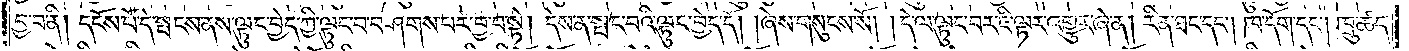བྱ་བ་ནི། དངོས་པོ་དེ་སྤངས་ནས་ལྟུང་བྱེད་ཀྱི་ལྟུང་བ་བཤགས་པར་བྱ་བ་སྟེ། དེས་ན་སྤང་པའི་ལྟུང་བྱེད་དོ། །ཞེས་གསུངས་སོ། །དེ་ལ་ལྟུང་བར་ཇི་ལྟར་འགྱུར་ཞེ་ན། རིན་ཐང་དང༌། ཁ་དོག་དང༌། ཁྲུ་ཚད་
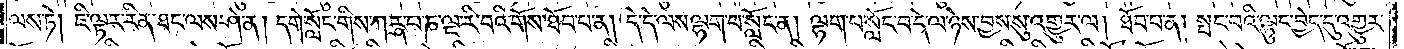ལས་ཏེ། ཇི་ལྟར་རིན་ཐང་ལས་ཤེ་ན། དགེ་སློང་གིས་ཀཪྴ་པ་ཎ་ལྔ་རི་བའི་གོས་ཐོབ་པ་ན། དེ་དེ་ལས་ལྷག་པ་སློང་ན། ལྷག་པ་སློང་བ་དེ་ལ་ཉེས་བྱས་སུ་འགྱུར་ལ། ཐོབ་པ་ན། སྤང་བའི་ལྟུང་བྱེད་དུ་འགྱུར་
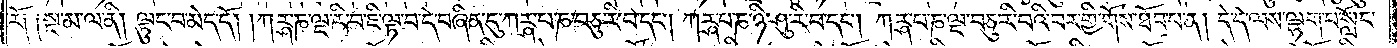རོ༑ ༑སྔ་མ་ལ་ནི། ལྟུང་བ་མེད་དོ། །ཀཪྴ་ཎ་ལྔ་རི་བ་ཇི་ལྟ་བ་དེ་བཞིན་དུ་ཀཪྴ་པ་ཎ་བཅུ་རི་བ་དང༌། ཀཪྴ་པ་ཎ་ཉི་ཤུ་རི་བ་དང༌། ཀཪྴ་པ་ཎ་ལྔ་བཅུ་རི་བའི་བར་གྱི་གོས་ཐོབ་པ་ན། དེ་དེ་ལས་ལྷག་པ་སློང་
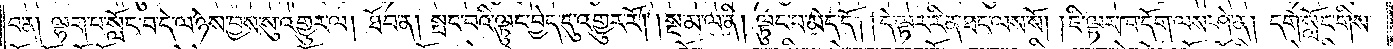བ་ན། ལྷག་པ་སློང་བ་དེ་ལ་ཉེས་བྱས་སུ་འགྱུར་ལ། ཐོབ་ན། སྤང་བའི་ལྟུང་བྱེད་དུ་འགྱུར་རོ། །སྔ་མ་ལ་ནི། ལྟུང་བ་མེད་དོ། །དེ་ལྟར་རིན་ཐང་ལས་སོ། །ཇི་ལྟར་ཁ་དོག་ལས་ཤེ་ན། དགེ་སློང་གིས་
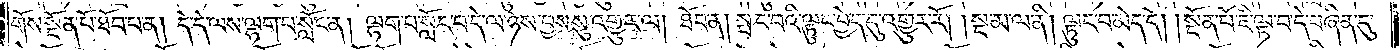གོས་སྔོན་པོ་ཐོབ་པ་ན། དེ་དེ་ལས་ལྷག་པ་སློང་ན། ལྷག་པ་སློང་བ་དེ་ལ་ཉེས་བྱས་སུ་འགྱུར་ལ། ཐོབ་ན། སྤང་བའི་ལྟུང་བྱེད་དུ་འགྱུར་རོ། །སྔ་མ་ལ་ནི། ལྟུང་བ་མེད་དོ། །སྔོན་པོ་ཇི་ལྟ་བ་དེ་བཞིན་དུ་
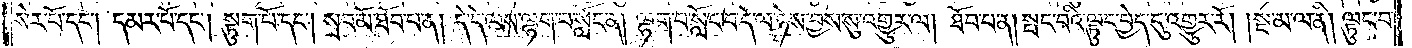སེར་པོ་དང༌། དམར་པོ་དང༌། སྟུག་པོ་དང༌། སྲབ་མོ་ཐོབ་པ་ན། དེ་དེ་ལས་ལྷག་པ་སློང་ན། ལྷག་པ་སློང་བ་དེ་ལ་ཉེས་བྱས་སུ་འགྱུར་ལ། ཐོབ་པ་ན། སྤང་བའི་ལྟུང་བྱེད་དུ་འགྱུར་རོ། །སྔ་མ་ལ་ནི། ལྟུང་བ་
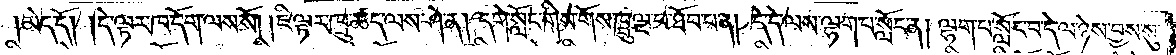མེད་དོ། །དེ་ལྟར་ཁ་དོག་ལ་ས་སོ། །ཇི་ལྟར་ཁྲུ་ཚད་ལས་ཤེ་ན། དགེ་སློང་གིས་གོས་ཁྲུ་ལྔ་པ་ཐོབ་པ་ན། དེ་དེ་ལས་ལྷག་པ་སློང་ན། ལྷག་པ་སློང་བ་དེ་ལ་ཉེས་བྱས་སུ་
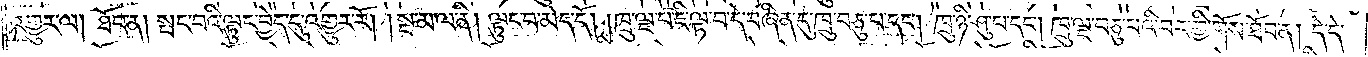འགྱུར་ལ། ཐོབ་ན། སྤང་པའི་ལྟུང་བྱེད་དུ་འགྱུར་རོ། །སྔ་མ་ལ་ནི། ལྟུང་བ་མེད་དོ། །ཁྲུ་ལྔ་པ་ཇི་ལྟ་བ་དེ་བཞིན་དུ་ཁྲུ་བཅུ་པ་དང༌། ཁྲུ་ཉི་ཤུ་པ་དང༌། ཁྲུ་ལྔ་བཅུ་པའི་བར་གྱི་གོས་ཐོབ་ན། ད་དེ་
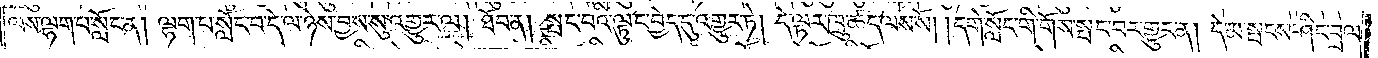ལས་ལྷག་པ་སློང་ན། ལྷག་པ་སློང་བ་དེ་ལ་ཉེས་བྱས་སུ་འགྱུར་ལ། ཐོབ་ན། སྤང་བའི་ལྟུང་བྱེད་དུ་འགྱུར་ཏེ། དེ་ལྟར་ཁྲུ་ཚད་ལས་སོ། །དགེ་སློང་གི་གོས་སྤང་བར་གྱུར་ན། དེ་མ་སྤངས་ཤིང་བྲལ་
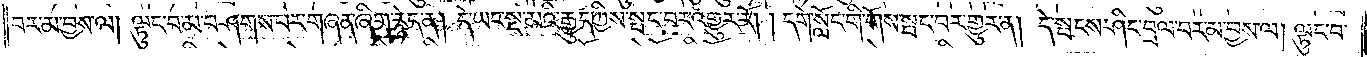བར་མ་བྱས་ལ། ལྟུང་བ་མ་བཤགས་པར་གཞན་ཞིག་རྙེད་ན། དེ་ཡང་སྔ་མའི་རྒྱུད་ཀྱིས་སྤང་བར་འགྱུར་རོ། །དགེ་སློང་གི་གོས་སྤང་བར་གྱུར་ན། དེ་སྤངས་ཤིང་བྲལ་བར་མ་བྱས་ལ། ལྟུང་བ་
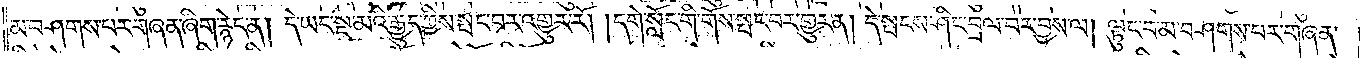མ་བཤགས་པར་གཞན་ཞིག་རྙེད་ན། དེ་ཡང་སྔ་མའི་རྒྱུད་ཀྱིས་སྤང་བར་འགྱུར་རོ། །དགེ་སློང་གི་གོས་སྤང་བར་གྱུར་ན། དེ་སྤངས་ཤིང་བྲལ་བར་བྱས་ལ། ལྟུང་བ་མ་བཤགས་པར་གཞན་
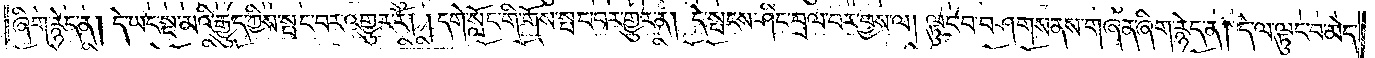ཞིག་རྙེད་ན། དེ་ཡང་སྔ་མའི་རྒྱུད་ཀྱིས་སྤང་བར་འགྱུར་རོ། །དགེ་སློང་གི་གོས་སྤང་བར་གྱུར་ན། དེ་སྤངས་ཤིང་བྲལ་བར་བྱས་ལ། ལྟུང་བ་བཤགས་ནས་གཞན་ཞིག་རྙེད་ན། དེ་ལ་ལྟུང་བ་མེད་
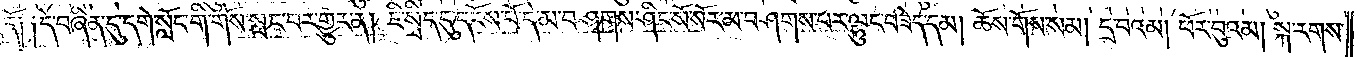དོ༑ ༑ དེ་བཞིན་དུ་དགེ་སློང་གི་གོས་སྤང་བར་གྱུར་ན། ཇི་སྲིད་དུ་དངོས་པོ་དེ་མ་བཤགས་ཤིང་སོ་སོར་མ་བཤགས་པར་ལྷུང་བཟེད་དམ། ཆོས་གོས་སམ། དྲ་བའམ། ཕོར་བུའམ། སྐ་རགས་
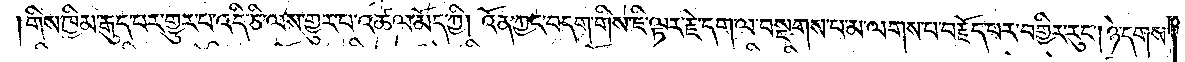གིས་ཁྱིམ་རྒུད་པར་གྱུར་པ་འདི་ཅི་ལས་གྱུར་པ་འཚལ་མོད་ཀྱི། འོན་ཀྱང་བདག་གིས་ཇི་ལྟར་རྗེ་དག་ལ་བསྔགས་པ་མ་ལགས་པ་བརྗོད་པར་བགྱིར་རུང༌། ཉེ་དགས་
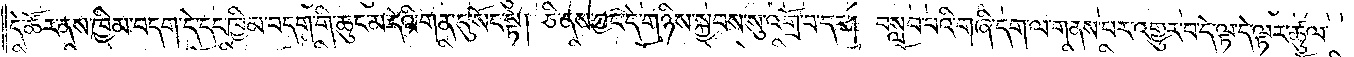དེ་ཚོར་ནས་ཁྱིམ་བདག་དེ་དང་ཁྱིམ་བདག་གི་ཆུང་མ་དེའི་གན་དུ་སོང་སྟེ། ཅི་ནས་ཀྱང་དེ་གཉིས་སྐྱབས་སུ་འགྲོ་བ་དང༌། བསླབ་པའི་གཞི་དག་ལ་གནས་པར་འགྱུར་བ་དེ་ལྟ་དེ་ལྟར་ཚུལ་
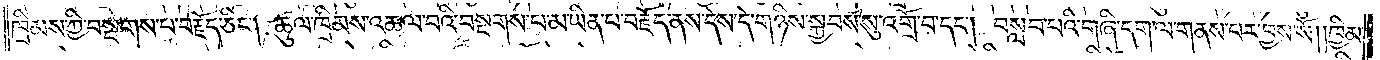ཁྲིམས་ཀྱི་བསྔགས་པ་བརྗོད་ཅིང༌། ཚུལ་ཁྲིམས་འཆལ་བའི་བསྔགས་པ་མ་ཡིན་པ་བརྗོད་ནས་དེས་དེ་གཉིས་སྐྱབས་སུ་འགྲོ་བ་དང༌། བསླབ་པའི་གཞི་དག་ལ་གནས་པར་བྱས་སོ། །ཁྱིམ་
